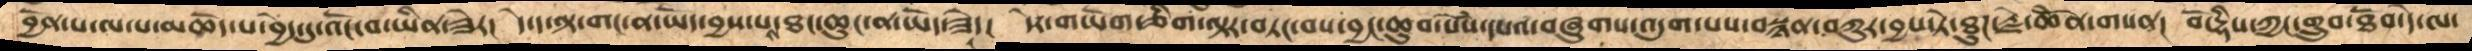བྱོན་པ་ལ་པ་མཆོད་པ་བྱེད་དུ་འོང་བ་ཡིན་ཟེར།  དེ་ད་ལྟ་གང་ན་ཡོད་བྱས་པས་ཐ་ཆུང་ན་ཡོད་ཟེད།  དེར་གཡོག་ཅིག་ལྟར་བཏང་བས་བྱང་ཆུབ་སེཾས་དཔའ་བཞུགས་འདུག་པས་བསྙེན་བཀུར་བྱས་ཏེ་ཐུཌ་རྗེ་ཆེནོ་གསན།  བོ་དྷིས་ཀྱང་གྲུབ་ཐོབ་དེ་ལ་
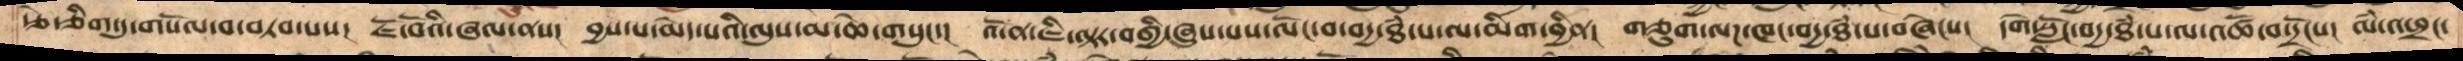རྩེ་གཅིག་གསོལ་བ་བཏབ་པས།  ཇོ་བོའི་ཞལ་ནས།  བྱས་པ་མེད་པའི་ལུས་མ་ཆེ་གསུང་།  འོ་ན་ཇི་ལྟར་བགྱི་ཞུས་པས་ལོང་པ་བདྱ་ཐཾ་པ་ལ་མིག་བྱིན།  གཙུག་ལཌ་ཁང་བདྱ་ཐཾ་པ་བཞེངས།  དགེ་སློང་བདྱ་ཐཾ་པ་ལ་འཚོ་བ་དྲོངས།  ལཾ་འཕྲང་
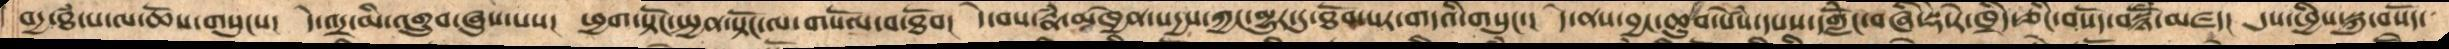བདྱ་ཐཾ་པ་ལ་ཆོས་གསུངས།  དེ་འདྲ་མི་འགྲུབ་ཞུས་པས།  ཕྱག་སྟོང་སྤྱན་སྟོང་ལ་གསོལ་བ་ཐོབ།  དེ་བས་རྣཾ་མཁྱེན་སདྱས་ཀྱང་མྱུར་དུ་ཐོབ་པར་གདའི་གསུངས།  དེ་ནས་བྱང་ཆུབ་སེཾས་དཔའ་དགླེོང་བཞི་སྡེ་རེ་ཁྲིད་ཅིང་བསོད་སྙོཾས་མཛད།  དུས་ཕྱིས་སྐུ་བསོད་
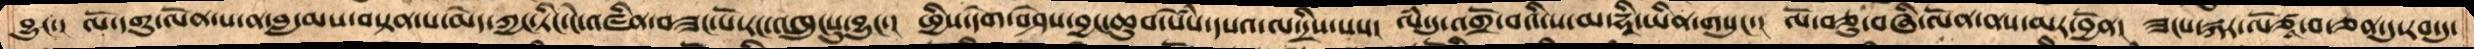བྱུང་།  ལོ་དགུ་ལོན་པ་ན་བླ་མས་བསྟན་པ་མེད་ཀྱང་ཏིང་ངེ་འཛིན་བཟང་པོ་རང་འཁྲུངསུ་བྱུང་།  ཕྱིས་དགེ་བཤེས་བྱང་ཆུབ་སེཾས་དཔའ་ལ་དྲིས་པས།  ལཾ་དུ་འགྲོ་བའི་ས་མ་དྷཱི་ཡིན་གསུང་།  ལོ་བཅུ་བཞི་ལོན་ནས་མར་བྱོན།  ཟངས་སྐར་་ལོཙཱ་བ་ཅན་དུ་རབ་དུ་
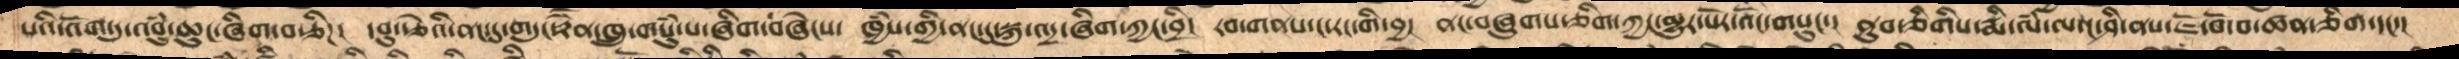པའི་འོག་དུ་འབུཾ་ཆུང་ཞིག་རྩིཌ།  དབུ་རྩེའི་ནང་དུ་གདུང་རྟེན་ཁྲུ་གསུཾ་པ་ཞིག་བཞེངས།  ཁྱཾས་གྱི་ནང་དུ་སྐུ་འདྲ་ཞིག་ཀྱང་བྲི།  རབ་གནས་ང་རང་གི་བྱ།  ནང་བཞུགས་ཅིག་ཀྱང་མྱུར་པོར་འོང་གསུང་།  ནུབ་ཅིགིས་རྨི་ལཾ་ནང་ཤི་ནསཇོ་བོ་བ་ཚན་ཅིག་དང་།
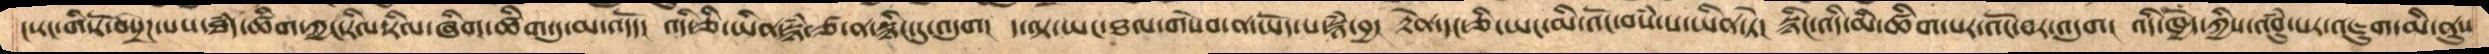ང་རང་གིས་རོ་བསྲེཌ་པས་ཐཾད་ཚིག་ཀྱང་རིལ་རིལ་ཞིག་ཚིག་དུ་མ་འདོད།  འདི་ཅི་ཡིན་སྙཾ་ན་སྙིང་དུ་འདུག།  ད་ལྟ་ཡང་ཐལ་གསེབ་ན་ཡོད་པ་སྙཾ་བྱ།  རྟེན་དང་ཅི་ཡང་མི་འོང་བསཾ་པ་ཡིན་ཏེ།  སྙིང་འདི་མི་ཚིག་པར་འོང་བར་འདུག  འདི་ཁྱེད་ཀྱིས་འབུཾ་པར་འཇུག་མི་ནུས་
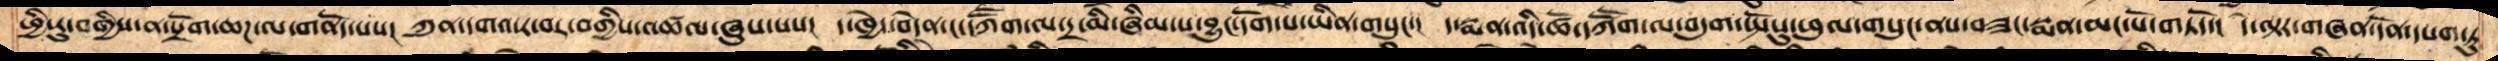ཕྱི་རུ་བགྱིས་ན་སྲོག་ཆཌ་ལ་གནོད་པས།  ཀུན་དགའ་ར་བར་བགྱིས་འཚལ་ཞུས་པས།  དེ་ཁྱེད་བདེན་ང་དཀཽག་ལ་དྲི་མི་ཞིམ་པ་བྱུང་དོག་པ་ཡིན་གསུང་།  ད་སྨན་འདི་ཚོ་དཀཽག་ལ་བདུག་སྤོསུ་ཕུལ་གསུང་ནས་བཟང་སྨན་མང་པོ་གཏདོ་།  དེ་ལྟར་གཞན་དོན་དཔག་ཏུ་
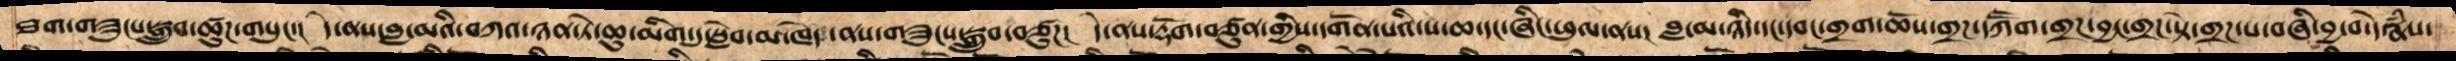ཐག་གཟུངས་སྒྲུབ་ཚུཌ་གསུང་།   དེ་ནས་བླ་མའི་བཀའ་ཉན་ཏེ་ཆུ་མིག་དུ་སླེབ་མ་ཁེད་ནས་གཟུངས་སྒྲུབ་བཙུཌ།  དེ་ནས་རྡོག་བཙུན་གྱིས་དགོན་པའི་ས་ཆ་དང་ཞིང་ཕུལ་ནས།  བླ་མ་ཉིད་དང་དབང་གྲག་ཆོས་གྲཌ་དཀཽག་གྲཌ་བྱང་གྲཌ་སྟེ་གྲཌ་པ་བཞི་བྱ་བ་དེ་རྣཾས་
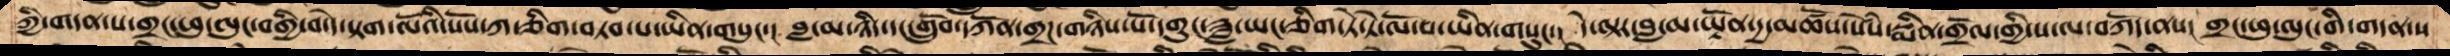ཀྱི་གདན་ས་གྲང་ཕུ་ལུང་བགྱི་བ་དེ་སྟག་ལོའི་སོས་ཀ་ཅིག་བཏབ་པ་ཡིན་གསུང་།  བླ་མ་ཉིད་དང་གྲུབ་ཐོབ་དཀན་གྲཌ་གཉིས་པོ་དགུང་ཟླ་ཡང་ཅིག་ཏེ་ཏེ་ལོ་བ་ཡིན་གསུང་།  དེ་ལྟར་བླ་མ་ཡྟོན་དྱ་མཚོས་སེཾས་སྨིན་གྲོལ་གྱི་ས་ལ་བཀོད་ནས། གྲང་ཕུ་ལུང་གི་གདན་ས་
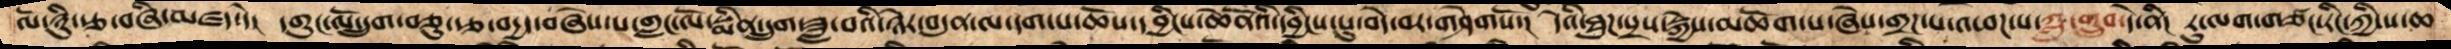ལོ་ཉྭིུ་རྩ་བཞི་མཛད་དེ།  དགུང་ལོ་དྲུག་བཅུ་རྩ་བདྱད་བཞེས་པ་གླང་ལོ་སྨིན་དྲུག་ཟླ་བའི་ཉེར་བདུན་ལ་དག་པ་ཆོས་དབྱིངས་ཆེནོའི་དབྱིངས་སུ་བདེ་བར་གཤེགསོ།  དེའི་ཐུཌ་སྲས་སྐྱེས་མཆོག་པ་ཞེས་གྲཌ་པ་འཕཌ་པ་ཀླུ་གྲུབ་དེ་ནི།  རུ་ལག་གཙང་རིང་ཀྱི་ས་ཆ་
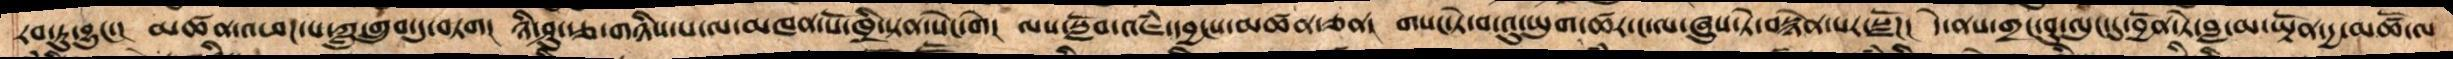རབ་ཏུ་བྱུང་།  མཚན་འཕཌ་པ་ཀླུ་གྲུབ་དུ་བཏག།  ཉི་ཤུ་རྩ་གཉིས་པ་ལ་མཁན་པོ་ཁྲི་སྟན་སེང་གེ།  ལས་སློབ་འཇཾ་དབྱངས་མཚན་ཅན།  གསང་ཏེ་བ་་འུ་ཡུག་ཚར་ང་ལ་ཞུས་ཏེ་བསྙེན་པར་སྫོཌ།  དེ་ནས་གྲང་བུ་ལུང་དུ་བྱོན་ཏེ་བླ་མ་ཡྟོན་དྱ་མཚོ་ལ་
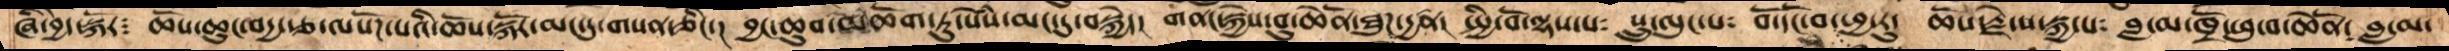ཞི་བྱེད་སྐོར༴  ཆོས་འབྱུང་བདྱ་རྩ་ལསོཌ་པའི་ཆོས་སྐོར་མང་དུ་གསན་ཅིང་།  བྱང་ཆུབ་མཆོག་ཏུ་སེཾས་མང་དུ་བསྐྱེད།  གནང་སྐྱེས་བུ་ཆེནོ་ཐུཌ་དྱཚན།  སྤྱི་བོ་ལྷས་པ༴  སྲུ་ལུང་པ༴  བོ་དོང་་བ་ཕྱ་རུ༴  ཆོས་རྗེ་ས་སྐྱ་པ༴  བླ་མ་ཁྲོ་ཕུ་བ་ཆེནོ༴ བླ་མ་
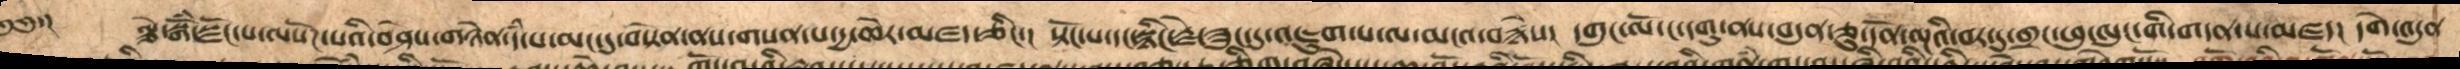༄༅་།    ལྕེ་སྒོཾ་སྫོང་པ་ལསོཌ་པའི་བཤེས་གཉེན་དཾ་པ་མང་དུ་བསྟེན་ནས་གསན་པ་དྱ་ཆེར་མཛད་ཅིང་།  སྟོང་པ་དང་སྙིང་རྗེ་ཟུང་དུ་འཛུག་པ་ལ་མངའ་བརྙེས།  དགུང་ལོ་ང་དགུ་ནས་བདུན་ཅུ་དོན་ལྔའི་བར་གྲང་ཕུ་ལུང་གི་གདན་ས་མཛད།  དགེ་འདུན་
